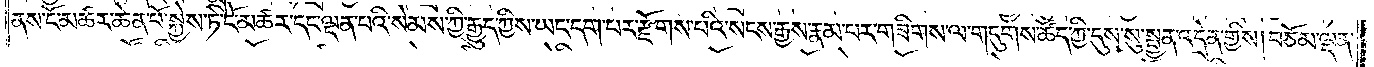ནས་ངོ་མཚར་ཆེན་པོ་སྐྱེས་ཏེ་ངོ་མཚར་དང་ལྡན་པའི་སེམས་ཀྱི་རྒྱུད་ཀྱིས་ཡང་དག་པར་རྫོགས་པའི་སངས་རྒྱས་རྣམ་པར་གཟིགས་ལ་གདུགས་ཚོད་ཀྱི་དུས་སུ་སྤྱན་འདྲེན་གྱིས། བཅོམ་ལྡན་
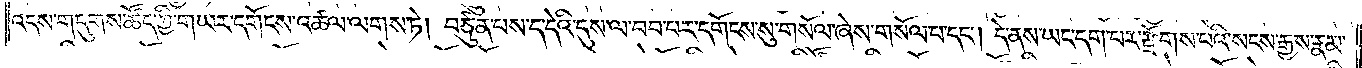འདས་གདུགས་ཚོད་ཀྱི་གཡར་དགོངས་འཚལ་ལགས་ཏེ། བཙུན་པས་ད་དེའི་དུས་ལ་བབ་པར་དགོངས་སུ་གསོལ་ཞེས་གསོལ་བ་དང༌། དེ་ནས་ཡང་དག་པར་རྫོགས་པའི་སངས་རྒྱས་རྣམ་
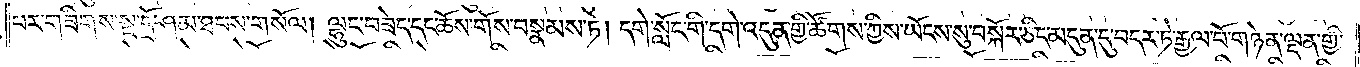པར་གཟིགས་སྔ་དྲོ་ཤམ་ཐབས་གསོལ། ལྷུང་བཟེད་དང་ཆོས་གོས་བསྣམས་ཏེ། དགེ་སློང་གི་དགེ་འདུན་གྱི་ཚོགས་ཀྱིས་ཡོངས་སུ་བསྐོར་ཅིང་མདུན་དུ་བདར་ཏེ་རྒྱལ་པོ་གཉེན་ལྡན་གྱི་
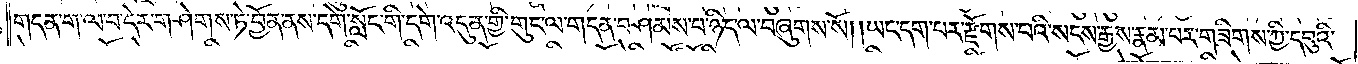གདན་ག་ལ་བ་དེར་གཤེགས་ཏེ་བྱོན་ནས་དགེ་སློང་གི་དགེ་འདུན་གྱི་གུང་ལ་གདན་བཤམས་པ་ཉིད་ལ་བཞུགས་སོ། །ཡང་དག་པར་རྫོགས་པའི་སངས་རྒྱས་རྣམ་པར་གཟིགས་ཀྱི་དབུའི་
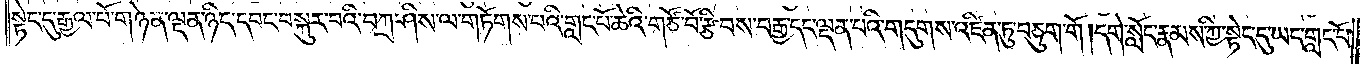སྟེང་དུ་རྒྱལ་པོ་གཉེན་ལྡན་ཉིད་དབང་བསྐུར་བའི་བཀྲ་ཤིས་ལ་གཏོགས་པའི་གླང་པོ་ཆེའི་གཙོ་བོ་རྩིབས་བརྒྱ་དང་ལྡན་པའི་གདུགས་འཛིན་ཏུ་བཅུག་གོ །དགེ་སློང་རྣམས་ཀྱི་སྟེང་དུ་ཡང་གླང་པོ་
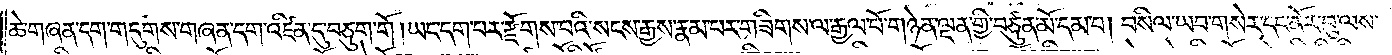ཆེ་གཞན་དག་གདུགས་གཞན་དག་འཛིན་དུ་བཅུག་གོ ། ཡང་དག་པར་རྫོགས་པའི་སངས་རྒྱས་རྣམ་པར་གཟིགས་ལ་རྒྱལ་པོ་གཉེན་ལྡན་གྱི་བཙུན་མོ་དམ་པ། བསིལ་ཡབ་གསེར་དང་ནོར་བུ་ལས་
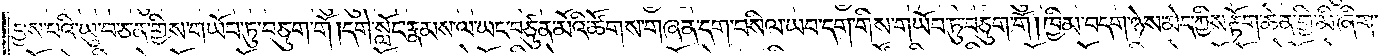བྱས་པའི་ཡུ་བ་ཅན་གྱིས་གཡོབ་ཏུ་བཅུག་གོ །དགེ་སློང་རྣམས་ལ་ཡང་བཙུན་མོའི་ཚོགས་གཞན་དག་བསིལ་ཡབ་དག་གིས་གཡོབ་ཏུ་བཅུག་གོ །ཁྱིམ་བདག་ཉེས་མེད་ཀྱིས་རྟོག་ཆེན་གྱི་མི་ཞིག་
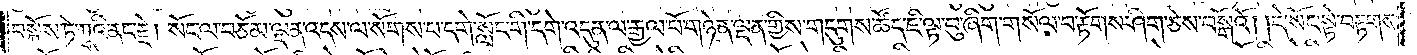བསྐོས་ཏེ་ཀྭའི་ནང་རྗེ། སོང་ལ་བཅོམ་ལྡན་འདས་ལ་སོགས་པ་དགེ་སློང་གི་དགེ་འདུན་ལ་རྒྱལ་པོ་གཉེན་ལྡན་གྱིས་གདུགས་ཚོད་ཇི་ལྟ་བུ་ཞིག་གསོལ་བ་རྟོགས་ཤིག་ཅེས་བསྒོའོ། །དེ་སོང་སྟེ་བརྟགས་
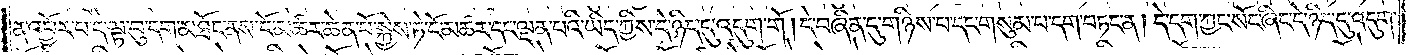ན་འབྱོར་པ་དེ་ལྟ་བུ་དག་མཐོང་ནས་ངོ་མཚར་ཆེན་པོ་སྐྱེས་ཏེ་ངོ་མཚར་དང་ལྡན་པའི་ཡིད་ཀྱིས་དེ་ཉིད་དུ་འདུག་གོ །དེ་བཞིན་དུ་གཉིས་པ་དང་གསུམ་པ་དག་བཏང་ན། དེ་དག་ཀྱང་སོང་ཞིང་དེ་ཉིད་དུ་འདུག་
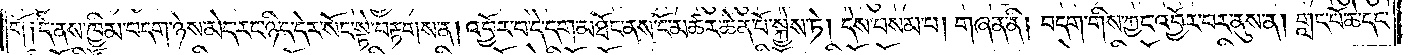གོ༑དེ་ནས་ཁྱིམ་བདག་ཉེས་མེད་རང་ཉིད་དེར་སོང་སྟེ་བརྟགས་ན། འབྱོར་པ་དེ་དག་མཐོང་ནས་ངོ་མཚར་ཆེན་པོ་སྐྱེས་ཏེ། དེས་བསམ་པ། གཞན་ནི། བདག་གིས་ཀྱང་འབྱོར་བར་ནུས་ན། གླང་པོ་ཆེ་དང་
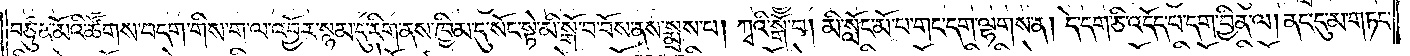བཙུན་མོའི་ཚོགས་བདག་གིས་ག་ལ་འབྱོར་སྙམ་དུ་རིག་ནས་ཁྱིམ་དུ་སོང་སྟེ་མི་སྒོ་བ་བོས་ནས་སྨྲས་པ། ཀྭའི་སྒོ་བ། མི་སློང་མོ་པ་གང་དག་ལྷགས་ན། དེ་དག་ཅི་འདོད་པ་དག་བྱིན་ལ། ནང་དུ་མ་གཏང་
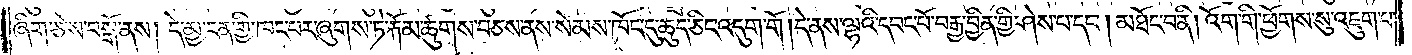ཞིག་ཅེས་བསྒོ་ནས། དེ་མྱ་ངན་གྱི་ཁང་པར་ཞུགས་ཏེ་རྐོམ་ཚུགས་བཅས་ནས་སེམས་ཁོང་དུ་ཆུད་ཅིང་འདུག་གོ །དེ་ནས་ལྷའི་དབང་པོ་བརྒྱ་བྱིན་གྱི་ཤེས་པ་དང༌། མཐོང་བ་ནི། འོག་གི་ཕྱོགས་སུ་འཇུག་པ་
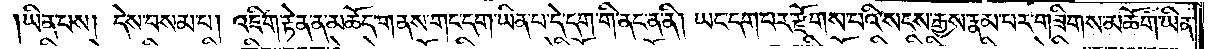ཡིན་པས། དེས་བསམ་པ། འཇིག་རྟེན་ན་མཆོད་གནས་གང་དག་ཡིན་པ་དེ་དག་གི་ནང་ན་ནི། ཡང་དག་པར་རྫོགས་པའི་སངས་རྒྱས་རྣམ་པར་གཟིགས་མཆོག་ཡིན་
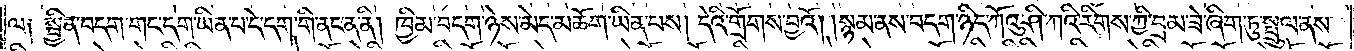ལ༑ སྦྱིན་བདག་གང་དག་ཡིན་པ་དེ་དག་གི་ནང་ན་ནི། ཁྱིམ་བདག་ཉེས་མེད་མཆོག་ཡིན་པས། དེའི་གྲོགས་བྱའོ། །སྙམ་ནས་བདག་ཉིད་ཀོའུ་ཤི་ཀའི་རིགས་ཀྱི་བྲམ་ཟེ་ཞིག་ཏུ་སྤྲུལ་ནས་
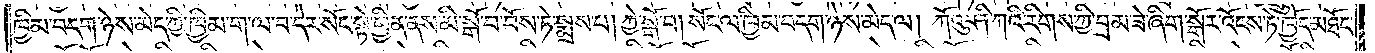ཁྱིམ་བདག་ཉེས་མེད་ཀྱི་ཁྱིམ་ག་ལ་བ་དེར་སོང་སྟེ་ཕྱིན་ནས་མི་སྒོ་བ་བོས་ཏེ་སྨྲས་པ། ཀྱེ་སྒོ་བ། སོང་ལ་ཁྱིམ་བདག་ཉེས་མེད་ལ། ཀོའུ་ཤི་ཀའི་རིགས་ཀྱི་བྲམ་ཟེ་ཞིག་སྒོར་འོངས་ཏེ་ཁྱོད་མཐོང་
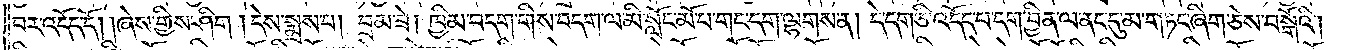བར་འདོད་དོ། །ཞེས་གྱིས་ཤིག །དེས་སྨྲས་པ། བྲམ་ཟེ། ཁྱིམ་བདག་གིས་བདག་ལ་མི་སློང་མོ་བ་གང་དག་ལྷགས་ན། དེ་དག་ཅི་འདོད་པ་དག་བྱིན་ལ་ནང་དུ་མ་གཏང་ཞིག་ཅེས་བསྒོའི།
